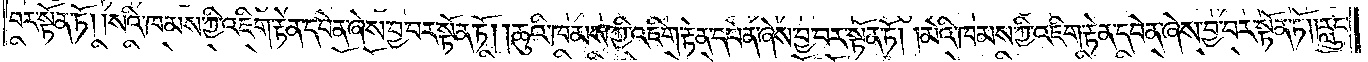བར་སྟོན་ཏོ། །སའི་ཁམས་ཀྱི་འཇིག་རྟེན་དབེན་ཞེས་བྱ་བར་སྟོན་ཏོ། །ཆུའི་ཁམས་ཀྱི་འཇིག་རྟེན་དབེན་ཞེས་བྱ་བར་སྟོན་ཏོ། །མེའི་ཁམས་ཀྱི་འཇིག་རྟེན་དབེན་ཞེས་བྱ་བར་སྟོན་ཏོ། །རླུང་
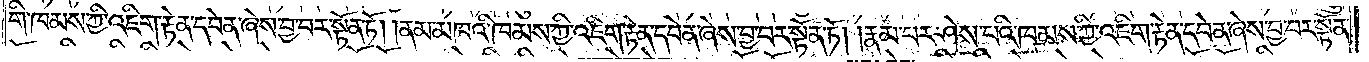གི་ཁམས་ཀྱི་འཇིག་རྟེན་དབེན་ཞེས་བྱ་བར་སྟོན་ཏོ། །ནམ་མཁའི་ཁམས་ཀྱི་འཇིག་རྟེན་དབེན་ཞེས་བྱ་བར་སྟོན་ཏོ། །རྣམ་པར་ཤེས་པའི་ཁམས་ཀྱི་འཇིག་རྟེན་དབེན་ཞེས་བྱ་བར་སྟོན་
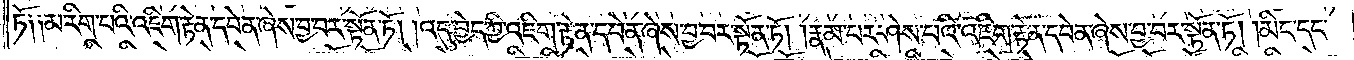ཏོ༑ ༑མ་རིག་པའི་འཇིག་རྟེན་དབེན་ཞེས་བྱ་བར་སྟོན་ཏོ། །འདུ་བྱེད་ཀྱི་འཇིག་རྟེན་དབེན་ཞེས་བྱ་བར་སྟོན་ཏོ། །རྣམ་པར་ཤེས་པའི་འཇིག་རྟེན་དབེན་ཞེས་བྱ་བར་སྟོན་ཏོ། །མིང་དང་
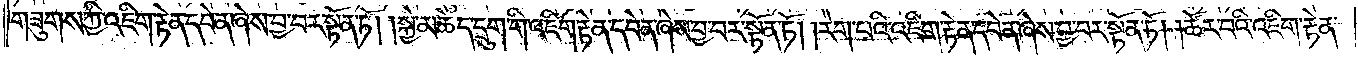གཟུགས་ཀྱི་འཇིག་རྟེན་དབེན་ཞེས་བྱ་བར་སྟོན་ཏོ། །སྐྱེ་མཆེད་དྲུག་གི་འཇིག་རྟེན་དབེན་ཞེས་བྱ་བར་སྟོན་ཏོ། །རེག་པའི་འཇིག་རྟེན་དབེན་ཞེས་བྱ་བར་སྟོན་ཏོ། །ཚོར་བའི་འཇིག་རྟེན་
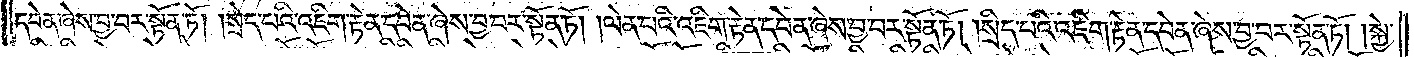དབེན་ཞེས་བྱ་བར་སྟོན་ཏོ། །སྲེད་པའི་འཇིག་རྟེན་དབེན་ཞེས་བྱ་བར་སྟོན་ཏོ། །ལེན་པའི་འཇིག་རྟེན་དབེན་ཞེས་བྱ་བར་སྟོན་ཏོ། །སྲིད་པའི་འཇིག་རྟེན་དབེན་ཞེས་བྱ་བར་སྟོན་ཏོ། །སྐྱེ་
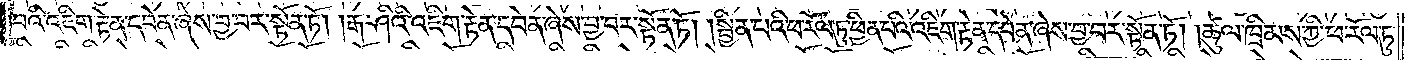བའི་འཇིག་རྟེན་དབེན་ཞེས་བྱ་བར་སྟོན་ཏོ། །རྒ་ཤིའི་འཇིག་རྟེན་དབེན་ཞེས་བྱ་བར་སྟོན་ཏོ། །སྦྱིན་པའི་ཕ་རོལ་ཏུ་ཕྱིན་པའི་འཇིག་རྟེན་དབེན་ཞེས་བྱ་བར་སྟོན་ཏོ། །ཚུལ་ཁྲིམས་ཀྱི་ཕ་རོལ་ཏུ་
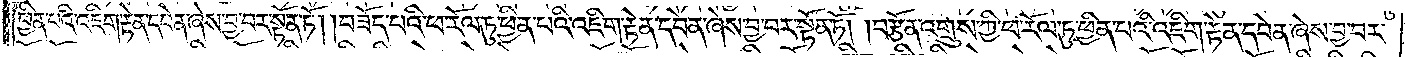ཕྱིན་པའི་འཇིག་རྟེན་དབེན་ཞེས་བྱ་བར་སྟོན་ཏོ། །བཟོད་པའི་ཕ་རོལ་ཏུ་ཕྱིན་པའི་འཇིག་རྟེན་དབེན་ཞེས་བྱ་བར་སྟོན་ཏོ། །བརྩོན་འགྲུས་ཀྱི་ཕ་རོལ་ཏུ་ཕྱིན་པའི་འཇིག་རྟེན་དབེན་ཞེས་བྱ་བར་
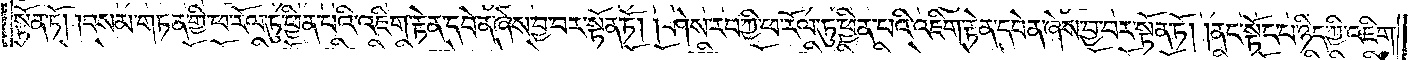སྟོན་ཏོ། །བསམ་གཏན་གྱི་ཕ་རོལ་ཏུ་ཕྱིན་པའི་འཇིག་རྟེན་དབེན་ཞེས་བྱ་བར་སྟོན་ཏོ། །ཤེས་རབ་ཀྱི་ཕ་རོལ་ཏུ་ཕྱིན་པའི་འཇིག་རྟེན་དབེན་ཞེས་བྱ་བར་སྟོན་ཏོ། །ནང་སྟོང་པ་ཉིད་ཀྱི་འཇིག་
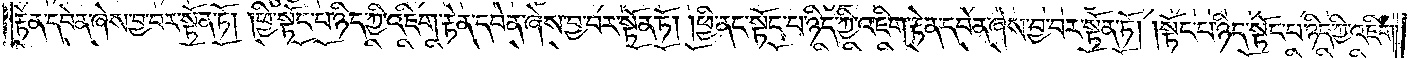རྟེན་དབེན་ཞེས་བྱ་བར་སྟོན་ཏོ། །ཕྱི་སྟོང་པ་ཉིད་ཀྱི་འཇིག་རྟེན་དབེན་ཞེས་བྱ་བར་སྟོན་ཏོ། །ཕྱི་ནང་སྟོང་པ་ཉིད་ཀྱི་འཇིག་རྟེན་དབེན་ཞེས་བྱ་བར་སྟོན་ཏོ། །སྟོང་པ་ཉིད་སྟོང་པ་ཉིད་ཀྱི་འཇིག་
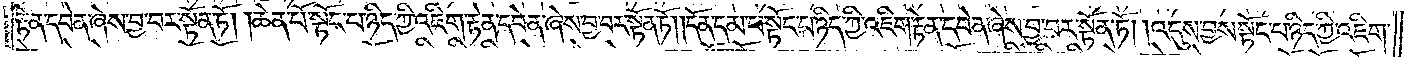རྟེན་དབེན་ཞེས་བྱ་བར་སྟོན་ཏོ། །ཆེན་པོ་སྟོང་པ་ཉིད་ཀྱི་འཇིག་རྟེན་དབེན་ཞེས་བྱ་བར་སྟོན་ཏོ། །དོན་དམ་པ་སྟོང་པ་ཉིད་ཀྱི་འཇིག་རྟེན་དབེན་ཞེས་བྱ་བར་སྟོན་ཏོ། །འདུས་བྱས་སྟོང་པ་ཉིད་ཀྱི་འཇིག་
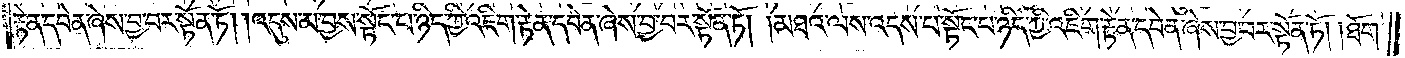རྟེན་དབེན་ཞེས་བྱ་བར་སྟོན་ཏོ། །འདུས་མ་བྱས་སྟོང་པ་ཉིད་ཀྱི་འཇིག་རྟེན་དབེན་ཞེས་བྱ་བར་སྟོན་ཏོ། །མཐའ་ལས་འདས་པ་སྟོང་པ་ཉིད་ཀྱི་འཇིག་རྟེན་དབེན་ཞེས་བྱ་བར་སྟོན་ཏོ། །ཐོག་
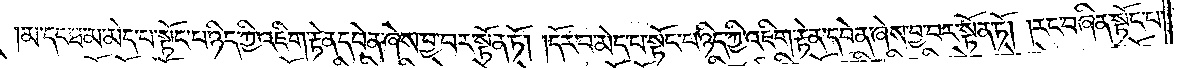མ་དང་ཐ་མ་མེད་པ་སྟོང་པ་ཉིད་ཀྱི་འཇིག་རྟེན་དབེན་ཞེས་བྱ་བར་སྟོན་ཏོ། །དོར་བ་མེད་པ་སྟོང་པ་ཉིད་ཀྱི་འཇིག་རྟེན་དབེན་ཞེས་བྱ་བར་སྟོན་ཏོ། །རང་བཞིན་སྟོང་པ་
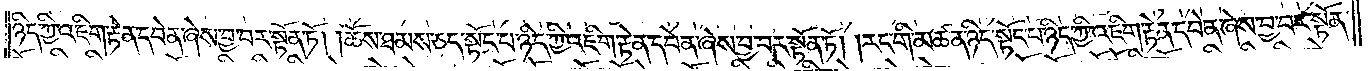ཉིད་ཀྱི་འཇིག་རྟེན་དབེན་ཞེས་བྱ་བར་སྟོན་ཏོ། །ཆོས་ཐམས་ཅད་སྟོང་པ་ཉིད་ཀྱི་འཇིག་རྟེན་དབེན་ཞེས་བྱ་བར་སྟོན་ཏོ། །རང་གི་མཚན་ཉིད་སྟོང་པ་ཉིད་ཀྱི་འཇིག་རྟེན་དབེན་ཞེས་བྱ་བར་སྟོན་
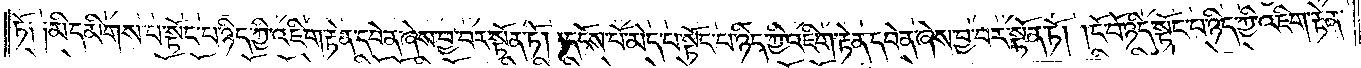ཏོ༑ ༑མི་དམིགས་པ་སྟོང་པ་ཉིད་ཀྱི་འཇིག་རྟེན་དབེན་ཞེས་བྱ་བར་སྟོན་ཏོ། །དངོས་པོ་མེད་པ་སྟོང་པ་ཉིད་ཀྱི་འཇིག་རྟེན་དབེན་ཞེས་བྱ་བར་སྟོན་ཏོ། །ངོ་བོ་ཉིད་སྟོང་པ་ཉིད་ཀྱི་འཇིག་རྟེན་
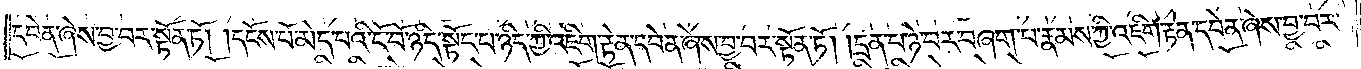དབེན་ཞེས་བྱ་བར་སྟོན་ཏོ། །དངོས་པོ་མེད་པའི་ངོ་བོ་ཉིད་སྟོང་པ་ཉིད་ཀྱི་འཇིག་རྟེན་དབེན་ཞེས་བྱ་བར་སྟོན་ཏོ། །དྲན་པ་ཉེ་བར་བཞག་པ་རྣམས་ཀྱི་འཇིག་རྟེན་དབེན་ཞེས་བྱ་བར་
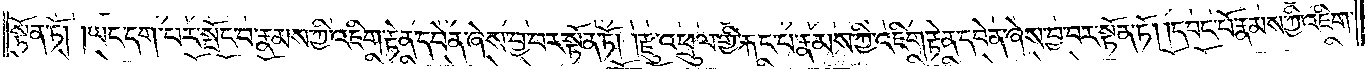སྟོན་ཏོ། །ཡང་དག་པར་སྤོང་བ་རྣམས་ཀྱི་འཇིག་རྟེན་དབེན་ཞེས་བྱ་བར་སྟོན་ཏོ། །རྫུ་འཕྲུལ་གྱི་རྐང་པ་རྣམས་ཀྱི་འཇིག་རྟེན་དབེན་ཞེས་བྱ་བར་སྟོན་ཏོ། །དབང་པོ་རྣམས་ཀྱི་འཇིག་
